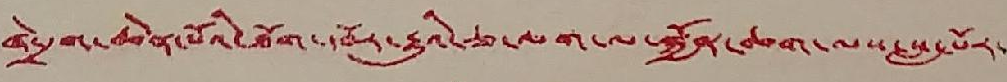ཞེ་དྲག་ཆེན་པོའི་ཐོག་དབོར་རྒྱུའི་ཅ་ལག་ལ་སྐྱོན་ཆག་ལས་སླ་པོར་
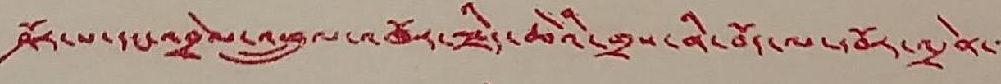ཤོར་པ་དང་འབྲེལ་འཕྲུལ་འཁོར་ལྗིད་ཆེའི་གྲས་ནི་བོད་ལ་དབོར་འདྲེན་་་
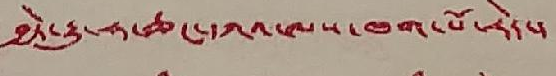བྱེད་རྒྱུ་ཧ་ཅང་དཀའ་ལས་ཁག་པོ་རེད་།
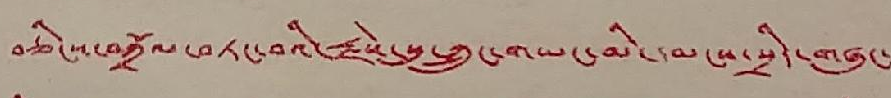བཅིངས་བཀྲོལ་བཏང་བའི་རྗེས་སུ་ཀྲུང་གཡང་མི་དམངས་སྲིད་གཞུང་
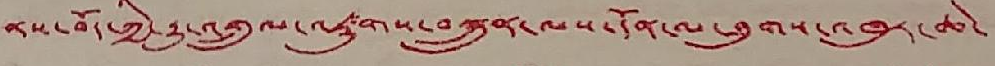ནས་བོད་ཀྱི་རྒྱུ་འགྲུལ་འཛུགས་བསྐྲུན་ལས་དོན་མ་ཐུགས་འཁུར་ཆེ་
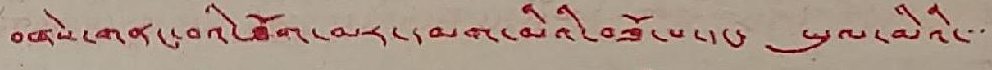བཞེས་གནང་བའི་ཐོག་མར་དམག་མིའི་བཟོ་པ་དང་ ཡུལ་མིའི་་་་
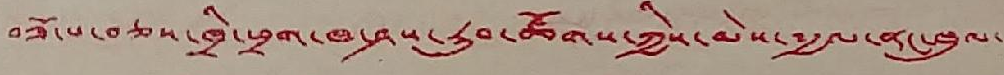བཟོ་པ་བཅས་ཁྲི་ཕྲག་ཁ་ཤས་རུབ་ཚོགས་ཀྱིས་མེས་༸རྒྱལ་ནང་ཁུལ་
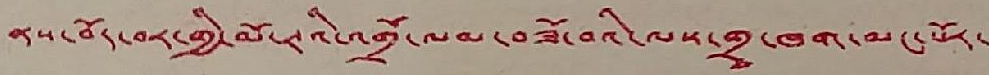ནས་བོད་བར་གྱི་མོ་ཊའི་འགྲོ་ལམ་བཟོ་བའི་ལས་གྲྭ་ཁག་མང་པོར་
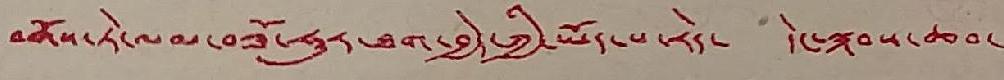བགོས་ཏེ་ལམ་བཟོ་ཧུར་ཐག་བྱེད་ཀྱི་ཡོད་པ་རེད་ དེང་སྐབས་ཆབ་
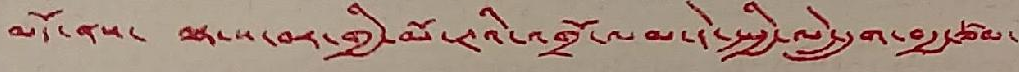མདོ་ནས་ ལྷ་ས་བར་གྱི་མོ་ཊའི་འགྲོ་ལམ་དེ་སྤྱི་ལེ་དྲུག་བརྒྱ་ཙམ་
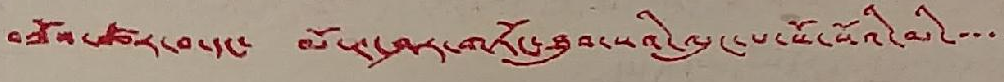བཟོས་ཚར་བ་དང་ མོ་ཊ་ཤར་གཏོང་ཐུབ་སའི་ལུང་པ་སོ་སོའི་མི་་་་
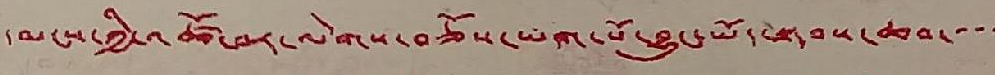དམངས་ཀྱི་འཚོ་བར་ལེགས་བཅོས་ཡག་པོ་བྱུང་ཡོད་སྟབས་ཆབ་་་་
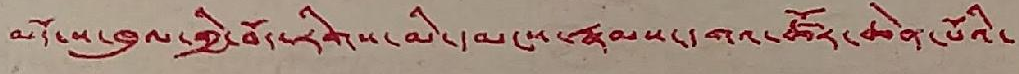མདོ་ས་ཁུལ་གྱི་བོད་རིགས་མི་དམངས་རྣམས་དགའ་ཚོར་ཆེན་པོའི་
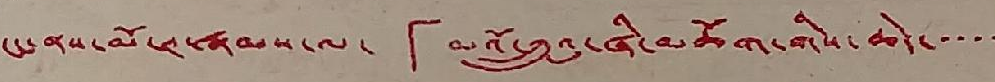ངང་ནས་མོ་ཊ་རྣམས་ལ་ 「མའོ་ཀྲུའུ་ཞི་མཆོག་གིས་ཆེད་་་་་
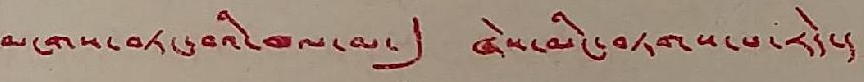མངགས་བཏང་བའི་ཁལ་མ་」 ཞེས་མིང་བཏགས་པ་རེད་།
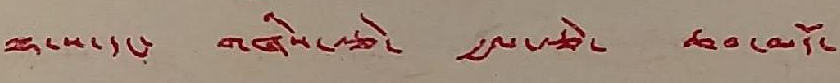ལྷ་ས་དང་ གཞིས་རྩེ་ རྒྱལ་རྩེ་ ཆབ་མདོ་
